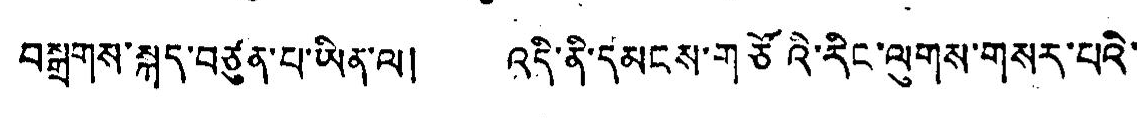བསྒྲགས་སྐད་བཙུན་པ་ཡིན་ལ། འདི་ནི་དམངས་གཙོའི་རིང་ལུགས་གསར་པའི་
